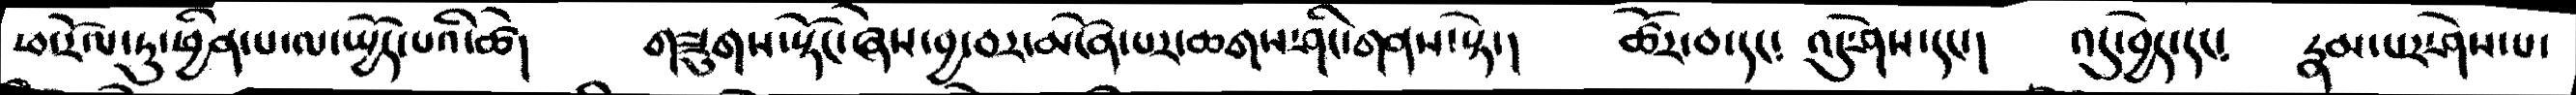ཕ་རོལ་ཏུ་ཕྱིན་པ་ལ་སྤྱོད་པའི་ཚེ།  གཟུགས་སྟོང་ཞེས་བྱ་བར་མངོན་པར་ཆགས་ཤིང་གནས་སྟེ་།  ཚོར་བ་དང་ འདུ་ཤེས་དང་།  འདུ་བྱེད་དང་  རྣམ་པར་ཤེས་པ་
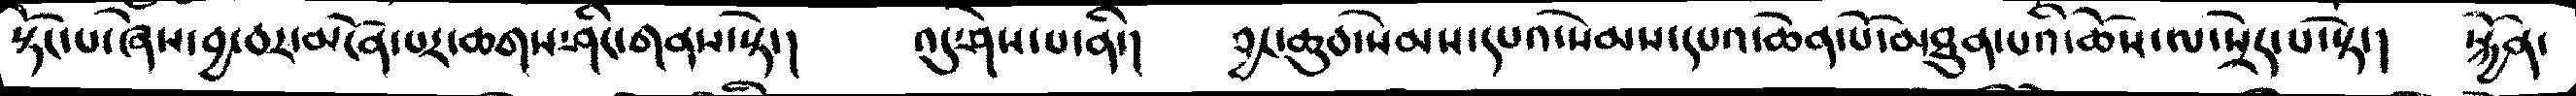སྟོང་པ་ཞེས་བྱ་བར་མངོན་པར་ཆགས་ཤིང་གནས་སྟེ་།  འདུ་ཤེས་པ་ནི་།  བྱང་ཆུབ་སེམས་དཔའ་སེམས་དཔའ་ཆེན་པོ་མཐུན་པའི་ཆོས་ལ་སྲེད་པ་སྟེ་།  སྐྱོན་
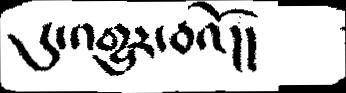དུ་འགྱུར་བའོ།།
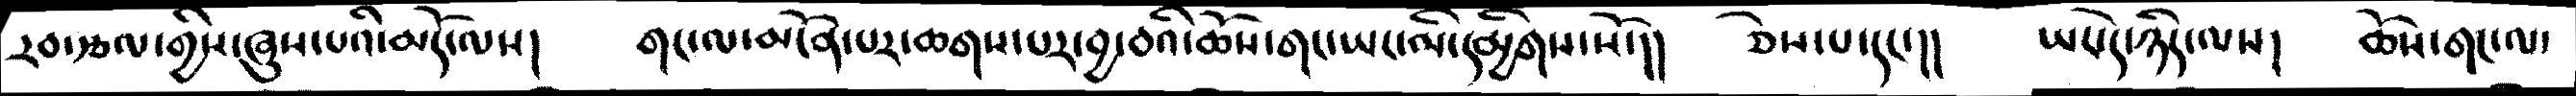རབ་རྩལ་གྱིས་ཞུས་པའི་མདོ་ལས།  གང་མ་མངོན་པར་ཆགས་པར་བྱ་བའི་ཆོས་གང་ཡང་མི་དམྱིགས་སོ་།།   ཅེས་པ་དང་།།   ཡང་དེ་ཉིད་ལས།  ཆོས་གང་ལ་
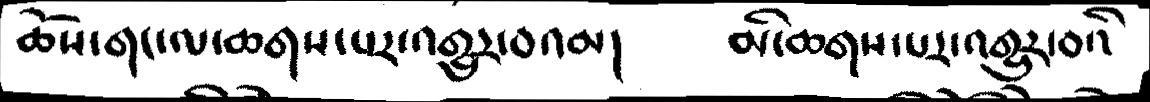ཆོས་གང་ལ་ཆགས་པར་འགྱུར་བའམ།  མི་ཆགས་པར་འགྱུར་བའི
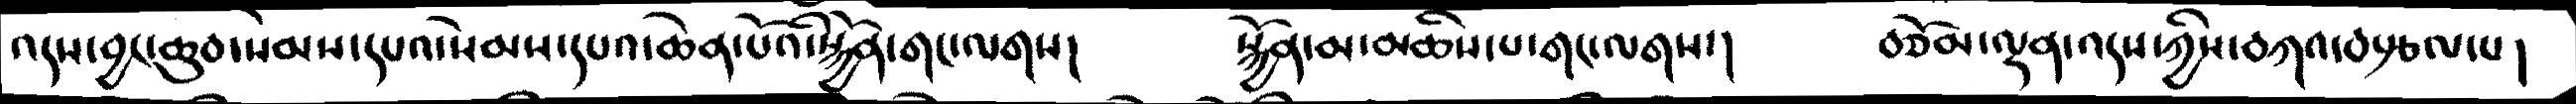འདས་བྱང་ཆུབ་སེམས་དཔའ་སེམས་དཔའ་ཆེན་པོའི་སྐྱོན་གང་ལགས།  སྐྱོན་མ་མཆིས་པ་གང་ལགས་།  བཅོམ་ལྡན་འདས་ཀྱིས་བཀའ་བསྩལ་པ།
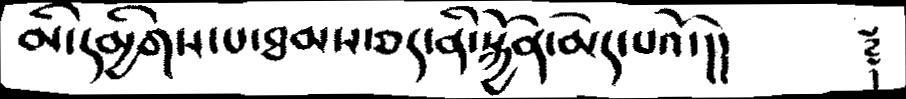མི་དམྱིགས་པ་ཐམས་ཅད་ནི་སྐྱོན་མེད་པའོ་།།     ༈
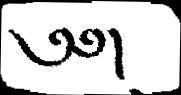༄༅།
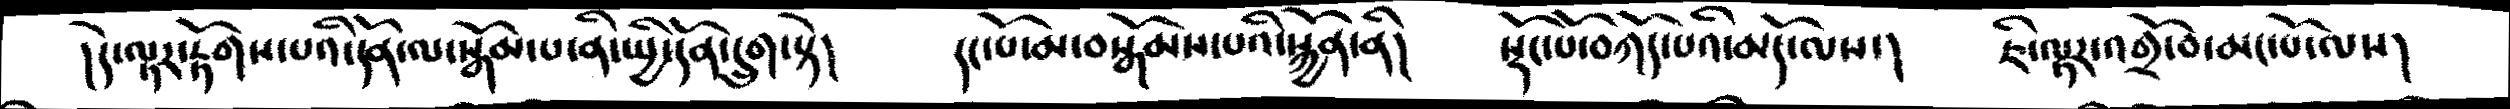།དེ་ལྟར་རྟོགས་པའི་དོན་ལ་སྒོམ་པ་ནི་སྤྱི་དོན་དྲུག་སྟེ།  དང་པོ་མ་བསྒོམ་པའི་སྐྱོན་ནི།   སྡོང་པོ་བཀོད་པའི་མདོ་ལས་།  ཇི་ལྟར་འགྲོ་བ་མང་པོ་ལས།
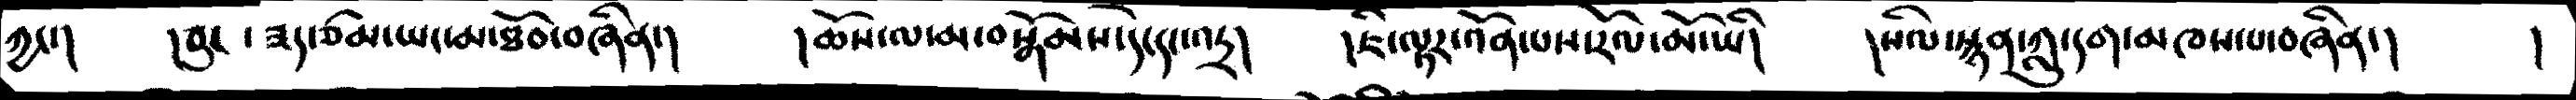ཀྱང་།   །ཅུང་  ཟད་ཙམ་ཡང་མ་ཐོབ་བཞིན་།  །ཆོས་ལ་མ་བསྒོམས་དེ་དང་འདྲ།  །ཇི་ལྟར་འོན་པས་རོལ་མོ་ཡི།   །སིལ་སྙན་ཀླུ་དག་མཁས་པ་བཞིན་།   །
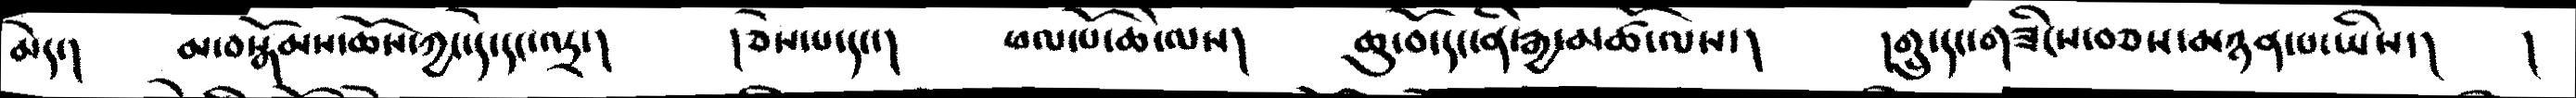མེད་།  མ་བསྒོམས་ཆོས་ཀྱང་དེ་དང་འདྲ་།  །ཅེས་པ་དང་།  ཕལ་པོ་ཆེ་ལས།  ཆུ་བོ་དང་ནི་རྒྱ་མཚོ་ལས་།  །གྲུ་དང་གཟིངས་བཅས་མཉན་པ་ཡིས་།   །
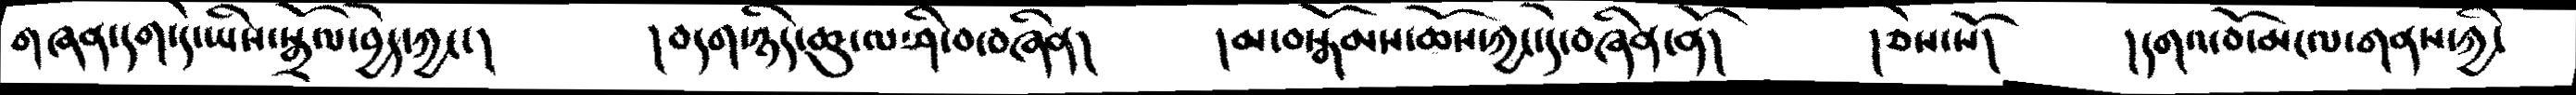གཞན་དག་དེ་ཡིས་སྒྲོལ་བྱེད་ཀྱང་།   །བདག་ཉིད་ཆུ་ལ་ཤི་བ་བཞིན།  །མ་བསྒོམས་ཆོས་ཀྱང་དེ་བཞིན་ནོ།  །ཅེས་སོ།  །དགའ་བོ་མངལ་གནས་ཀྱི་
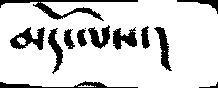མདོ་ལས་།
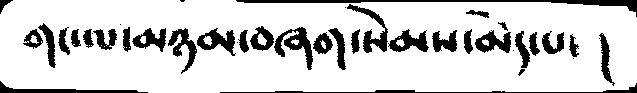གང་ལ་མཉམ་བཞག་སེམས་མེད་པ་ །
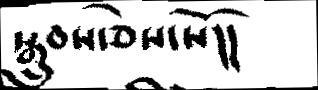སྒྲུབས་ཅེས་སོ།།
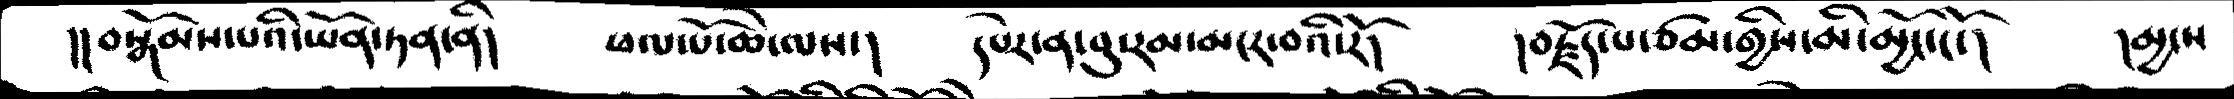།།བསྒོམས་པའི་ཡོན་ཏན་ནི།   ཕལ་པོ་ཆེ་ལས་།    དཔེར་ན་བུ་རམ་མངར་བའི་རོ།    །བརྗོད་པ་ཙམ་གྱིས་མི་མྱོང་ངོ་།   །མྱངས
